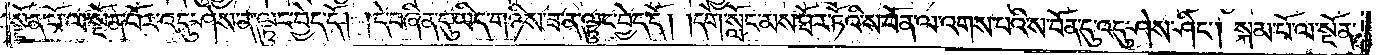སྔོན་པོ་ལ་སྔོན་པོར་འདུ་ཤེས་ན་ལྟུང་བྱེད་དོ། །དེ་བཞིན་དུ་ཡིད་གཉིས་ཟ་ན་ལྟུང་བྱེད་དོ། །དགེ་སློང་མས་ཐོར་ཏོའི་ས་བོན་ལ་འགས་པའི་ས་བོན་དུ་འདུ་ཤེས་ཤིང༌། སྐམ་པོ་ལ་སྔོན་
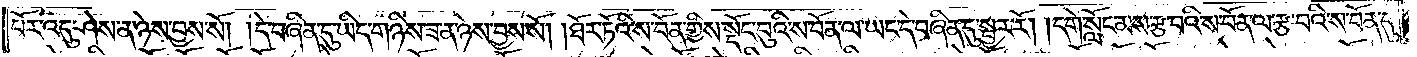པོར་འདུ་ཤེས་ན་ཉེས་བྱས་སོ། །དེ་བཞིན་དུ་ཡིད་གཉིས་ཟ་ན་ཉེས་བྱས་སོ། །ཐོར་ཏོའི་ས་བོན་གྱིས་སྡོང་བུའི་ས་བོན་ལ་ཡང་དེ་བཞིན་དུ་སྦྱར་རོ། །དགེ་སློང་མས་རྩ་བའི་ས་བོན་ལ་རྩ་བའི་ས་བོན་དུ་
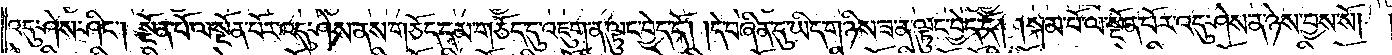འདུ་ཤེས་ཤིང༌། སྔོན་པོ་ལ་སྔོན་པོར་འདུ་ཤེས་ནས་གཅོད་དམ་གཅོད་དུ་འཇུག་ན་ལྟུང་བྱེད་དོ། །དེ་བཞིན་དུ་ཡིད་གཉིས་ཟ་ན་ལྟུང་བྱེད་དོ། །སྐམ་པོ་ལ་སྔོན་པོར་འདུ་ཤེས་ན་ཉེས་བྱས་སོ། །
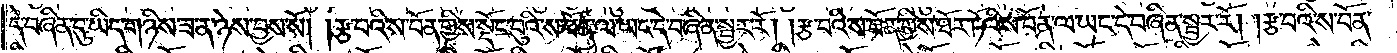དེ་བཞིན་དུ་ཡིད་གཉིས་ཟ་ན་ཉེས་བྱས་སོ། །རྩ་བའི་ས་བོན་གྱིས་སྡོང་བུའི་ས་བོན་ལ་ཡང་དེ་བཞིན་སྦྱར་རོ། །རྩ་བའི་ས་བོན་གྱིས་ཐོར་ཏོའི་ས་བོན་ལ་ཡང་དེ་བཞིན་སྦྱར་རོ། །རྩ་བའི་ས་བོན་
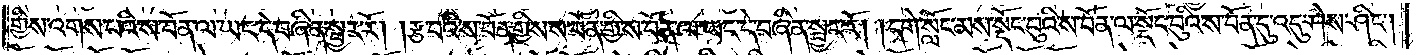གྱིས་འགས་པའི་ས་བོན་ལ་ཡང་དེ་བཞིན་སྦྱར་རོ། །རྩ་བའི་ས་བོན་གྱིས་ས་བོན་གྱི་ས་བོན་ལ་ཡང་དེ་བཞིན་སྦྱར་རོ། །དགེ་སློང་མས་སྡོང་བུའི་ས་བོན་ལ་སྡོང་བུའི་ས་བོན་དུ་འདུ་ཤེས་ཤིང༌།
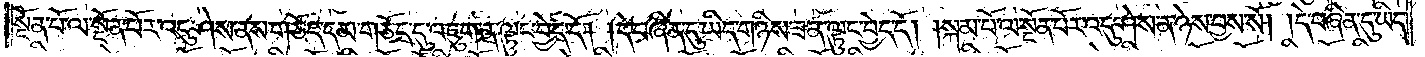སྔོན་པོ་ལ་སྔོན་པོར་འདུ་ཤེས་ནས་གཅོད་དམ་གཅོད་དུ་འཇུག་ན་ལྟུང་བྱེད་དོ། །དེ་བཞིན་དུ་ཡིད་གཉིས་ཟ་ན་ལྟུང་བྱེད་དོ། །སྐམ་པོ་ལ་སྔོན་པོར་འདུ་ཤེས་ན་ཉེས་བྱས་སོ། །དེ་བཞིན་དུ་ཡིད་
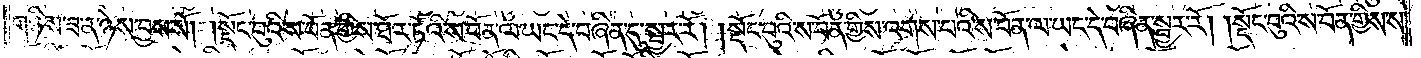གཉིས་ཟ་ན་ཉེས་བྱས་སོ། །སྡོང་བུའི་ས་བོན་གྱིས་ཐོར་ཏོའི་ས་བོན་ལ་ཡང་དེ་བཞིན་དུ་སྦྱར་རོ། །སྡོང་བུའི་ས་བོན་གྱིས་འགས་པའི་ས་བོན་ལ་ཡང་དེ་བཞིན་སྦྱར་རོ། །སྡོང་བུའི་ས་བོན་གྱིས་ས་
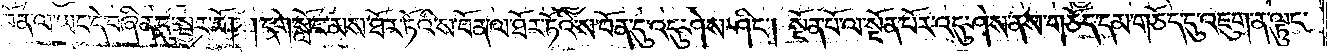བོན་ལ་ཡང་དེ་བཞིན་དུ་སྦྱར་རོ། །དགེ་སློང་མས་ཐོར་ཏོའི་ས་བོན་ལ་ཐོར་ཏོའི་ས་བོན་དུ་འདུ་ཤེས་ཤིང༌། སྔོན་པོ་ལ་སྔོན་པོར་འདུ་ཤེས་ནས་གཅོད་དམ་གཅོད་དུ་འཇུག་ན་ལྟུང་
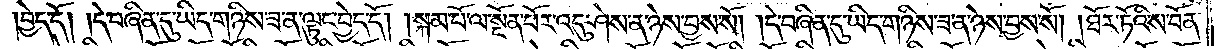བྱེད་དོ། །དེ་བཞིན་དུ་ཡིད་གཉིས་ཟ་ན་ལྟུང་བྱེད་དོ། །སྐམ་པོ་ལ་སྔོན་པོར་འདུ་ཤེས་ན་ཉེས་བྱས་སོ། །དེ་བཞིན་དུ་ཡིད་གཉིས་ཟ་ན་ཉེས་བྱས་སོ། །ཐོར་ཏོའི་ས་བོན་
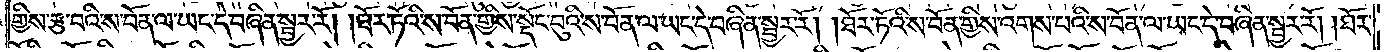གྱིས་རྩ་བའི་ས་བོན་ལ་ཡང་དེ་བཞིན་སྦྱར་རོ། །ཐོར་ཏོའི་ས་བོན་གྱིས་སྡོང་བུའི་ས་བོན་ལ་ཡང་དེ་བཞིན་སྦྱར་རོ། །ཐོར་ཏོའི་ས་བོན་གྱིས་འགས་པའི་ས་བོན་ལ་ཡང་དེ་བཞིན་སྦྱར་རོ། །ཐོར་
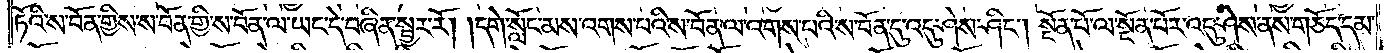ཏོའི་ས་བོན་གྱིས་ས་བོན་གྱི་ས་བོན་ལ་ཡང་དེ་བཞིན་སྦྱར་རོ། །དགེ་སློང་མས་འགས་པའི་ས་བོན་ལ་འགས་པའི་ས་བོན་དུ་འདུ་ཤེས་ཤིང༌། སྔོན་པོ་ལ་སྔོན་པོར་འདུ་ཤེས་ནས་གཅོད་དམ་
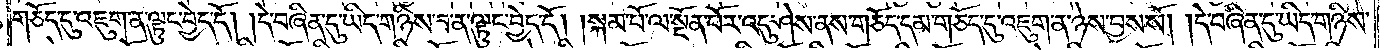གཅོད་དུ་འཇུག་ན་ལྟུང་བྱེད་དོ། །དེ་བཞིན་དུ་ཡིད་གཉིས་ཟ་ན་ལྟུང་བྱེད་དོ། །སྐམ་པོ་ལ་སྔོན་པོར་འདུ་ཤེས་ནས་གཅོད་དམ་གཅོད་དུ་འཇུག་ན་ཉེས་བྱས་སོ། །དེ་བཞིན་དུ་ཡིད་གཉིས་
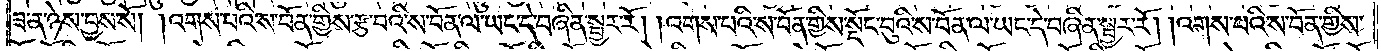ཟ་ན་ཉེས་བྱས་སོ། །འགས་པའི་ས་བོན་གྱིས་རྩ་བའི་ས་བོན་ལ་ཡང་དེ་བཞིན་སྦྱར་རོ། །འགས་པའི་ས་བོན་གྱིས་སྡོང་བུའི་ས་བོན་ལ་ཡང་དེ་བཞིན་སྦྱར་རོ། །འགས་པའི་ས་བོན་གྱིས་
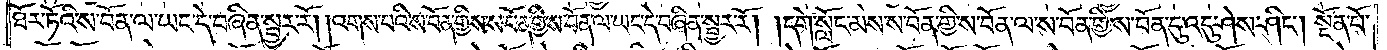ཐོར་ཏོའི་ས་བོན་ལ་ཡང་དེ་བཞིན་སྦྱར་རོ། །འགས་པའི་ས་བོན་གྱིས་ས་བོན་ལ་ཡང་དེ་བཞིན་སྦྱར་རོ། །དགེ་སློང་མས་ས་བོན་གྱི་ས་བོན་ལ་ས་བོན་གྱི་ས་བོན་དུ་འདུ་ཤེས་ཤིང༌། སྔོན་པོ་
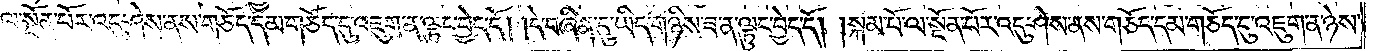ལ་སྔོན་པོར་འདུ་ཤེས་ནས་གཅོད་དམ་གཅོད་དུ་འཇུག་ན་ལྟུང་བྱེད་དོ། །དེ་བཞིན་དུ་ཡིད་གཉིས་ཟ་ན་ལྟུང་བྱེད་དོ། །སྐམ་པོ་ལ་སྔོན་པོར་འདུ་ཤེས་ནས་གཅོད་དམ་གཅོད་དུ་འཇུག་ན་ཉེས་
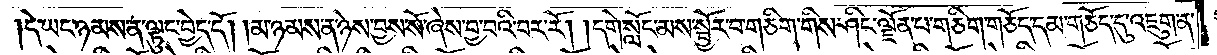དེ་ཡང་ཉམས་ན་ལྟུང་བྱེད་དོ། །མ་ཉམས་ན་ཉེས་བྱས་སོ་ཞེས་བྱ་བའི་བར་རོ། །དགེ་སློང་མས་སྦྱོར་བ་གཅིག་གིས་ཤིང་ལྗོན་པ་གཅིག་གཅོད་དམ་གཅོད་དུ་འཇུག་ན་
